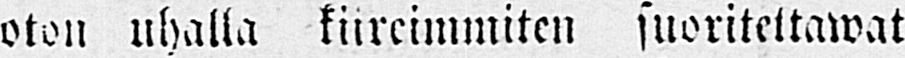oton uhalla kiireimmiten suoritettawat
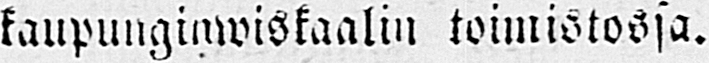kaupunginwiskaalin toimistossa.
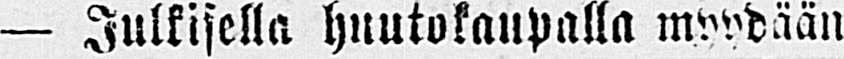— Julkisella huutokaupalla myydään
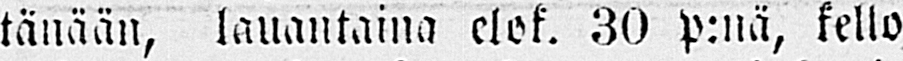tänään, lauantaina elok. 30 p:nä, kello
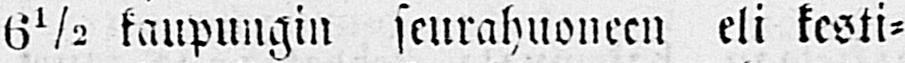6½ kaupungin seurahuoneen eli kesti-
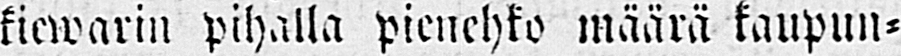kiewarin pihalla pienehkö määrä kaupun-
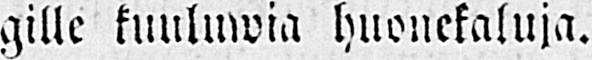gille kuuluwia huonekaluja.
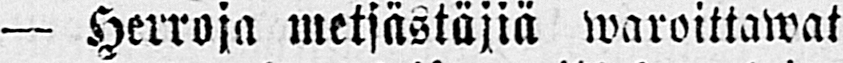— Herroja metsästäjiä waroittawat
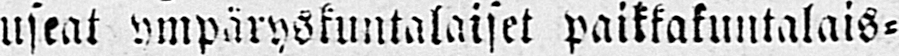useat ympäryskuntalaiset paikkakuntalais-
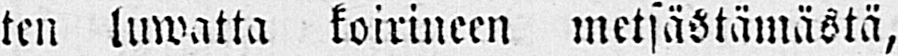ten luwatta koirineen metsästämästä,
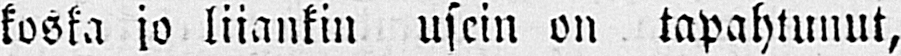koska jo liiankin usein on tapahtunut,
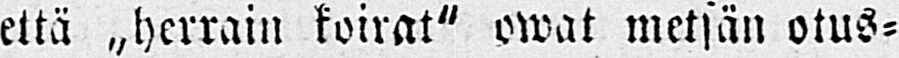että „herrain koirat" owat metsän otus-
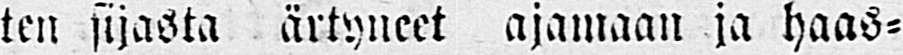ten sijasta ärtyneet ajamaan ja haas-
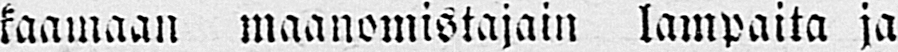kaamaan maanomistajain lampaita ja
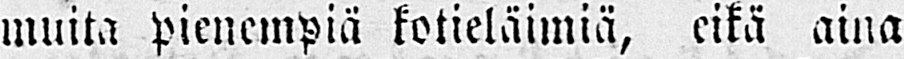muita pienempiä kotieläimiä, eikä aina
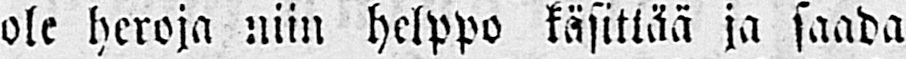ole heroja niin helppo käsittää ja saada
